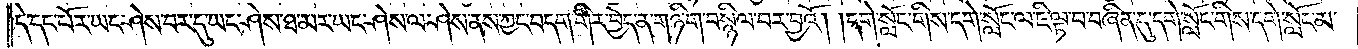དེ་དང་པོར་ཡང་ཤེས་བར་དུ་ཡང་ཤེས་ཐ་མར་ཡང་ཤེས་ལ་ཤེས་ནས་ཀྱང་བདག་གིར་བྱེད་ན་གཉི་ག་བསྙིལ་བར་བྱའོ། །དགེ་སློང་གིས་དགེ་སློང་ལ་ཇི་ལྟ་བ་བཞིན་དུ་དགེ་སློང་གིས་དགེ་སློང་མ་
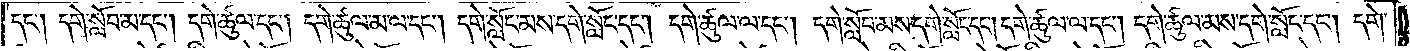དང༌། དགེ་སློབ་མ་དང༌། དགེ་ཚུལ་དང༌། དགེ་ཚུལ་མ་ལ་དང༌། དགེ་སློང་མས་དགེ་སློང་དང༌། དགེ་ཚུལ་ལ་དང༌། དགེ་སློབ་མས་དགེ་སློང་དང༌། དགེ་ཚུལ་ལ་དང༌། དགེ་ཚུལ་མས་དགེ་སློང་དང༌། དགེ་
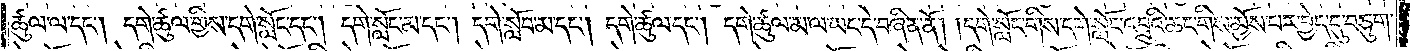ཚུལ་ལ་དང༌། དགེ་ཚུལ་གྱིས་དགེ་སློང་དང༌། དགེ་སློང་མ་དང༌། དགེ་སློབ་མ་དང༌། དགེ་ཚུལ་དང༌། དགེ་ཚུལ་མ་ལ་ཡང་དེ་བཞིན་ནོ། །དགེ་སློང་གིས་དགེ་སློང་འབྲུའི་ཆང་གིས་མྱོས་པར་བྱེད་དུ་བཅུག་
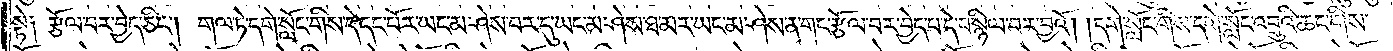སྟེ༑ རྩོལ་བར་བྱེད་ཅིང༌། གལ་ཏེ་དགེ་སློང་གིས་དེ་དང་པོར་ཡང་མ་ཤེས་བར་དུ་ཡང་མ་ཤེས་ཐ་མར་ཡང་མ་ཤེས་ན་གང་རྩོལ་བར་བྱེད་པ་དེ་བསྙིལ་བར་བྱའོ། །དགེ་སློང་གིས་དགེ་སློང་འབྲུའི་ཆང་གིས་
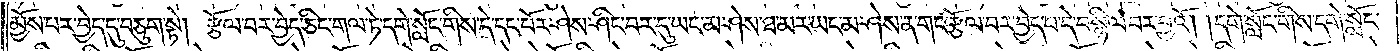མྱོས་པར་བྱེད་དུ་བཅུག་སྟེ། རྩོལ་བར་བྱེད་ཅིང་གལ་ཏེ་དགེ་སློང་གིས་དེ་དང་པོར་ཤེས་ཤིང་བར་དུ་ཡང་མ་ཤེས་ཐ་མར་ཡང་མ་ཤེས་ན་གང་རྩོལ་བར་བྱེད་པ་དེ་བསྙིལ་བར་བྱའོ། །དགེ་སློང་གིས་དགེ་སློང་
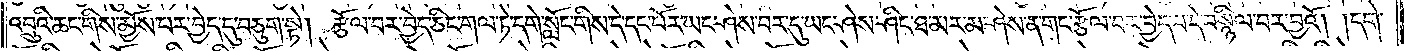འབྲུའི་ཆང་གིས་མྱོས་པར་བྱེད་དུ་བཅུག་སྟེ། རྩོལ་བར་བྱེད་ཅིང་གལ་ཏེ་དགེ་སློང་གིས་དེ་དང་པོར་ཡང་ཤེས་པར་དུ་ཡང་ཤེས་ཤིང་ཐ་མར་མ་ཤེས་ན་གང་རྩོལ་བར་བྱེད་པ་དེ་བསྙིལ་བར་བྱའོ། །དགེ་
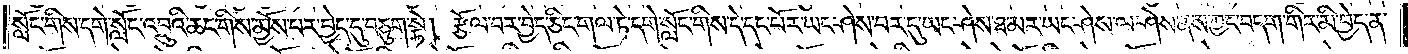སློང་གིས་དགེ་སློང་འབྲུའི་ཆང་གིས་མྱོས་པར་བྱེད་དུ་བཅུག་སྟེ། རྩོལ་བར་བྱེད་ཅིང་གལ་ཏེ་དགེ་སློང་གིས་དེ་དང་པོར་ཡང་ཤེས་བར་དུ་ཡང་ཤེས་ཐ་མར་ཡང་ཤེས་ལ་ཤེས་ནས་ཀྱང་བདག་གིར་མི་བྱེད་ན་
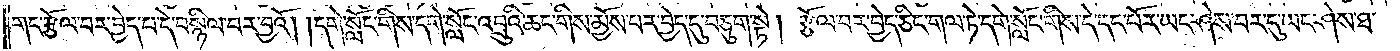གང་རྩོལ་བར་བྱེད་པ་དེ་བསྙིལ་བར་བྱའོ། །དགེ་སློང་གིས་དགེ་སློང་འབྲུའི་ཆང་གིས་མྱོས་པར་བྱེད་དུ་བཅུག་སྟེ། རྩོལ་བར་བྱེད་ཅིང་གལ་ཏེ་དགེ་སློང་གིས་དེ་དང་པོར་ཡང་ཤེས་བར་དུ་ཡང་ཤེས་ཐ་
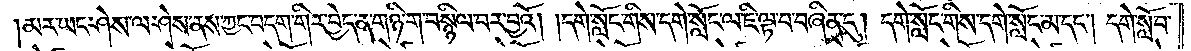མར་ཡང་ཤེས་ལ་ཤེས་ནས་ཀྱང་བདག་གིར་བྱེད་ན་གཉི་ག་བསྙིལ་བར་བྱའོ། །དགེ་སློང་གིས་དགེ་སློང་ལ་ཇི་ལྟ་བ་བཞིན་དུ། དགེ་སློང་གིས་དགེ་སློང་མ་དང༌། དགེ་སློབ་
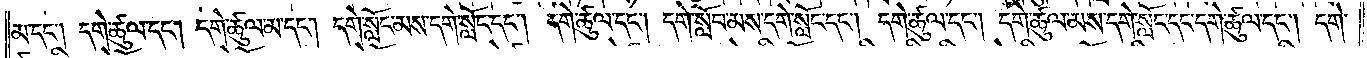མ་དང༌། དགེ་ཚུལ་དང༌། དགེ་ཚུལ་མ་དང༌། དགེ་སློང་མས་དགེ་སློང་དང༌། དགེ་ཚུལ་དང༌། དགེ་སློབ་མས་དགེ་སློང་དང༌། དགེ་ཚུལ་དང༌། དགེ་ཚུལ་མས་དགེ་སློང་དང་དགེ་ཚུལ་དང༌། དགེ་
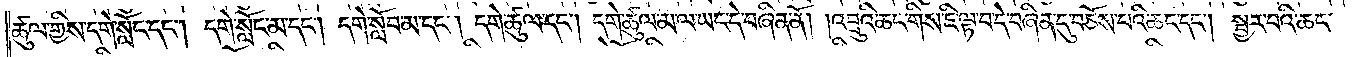ཚུལ་གྱིས་དགེ་སློང་དང༌། དགེ་སློང་མ་དང༌། དགེ་སློབ་མ་དང༌། དགེ་ཚུལ་དང༌། དགེ་ཚུལ་མ་ལ་ཡང་དེ་བཞིན་ནོ། །འབྲུའི་ཆང་གིས་ཇི་ལྟ་བ་དེ་བཞིན་དུ་བཅོས་པའི་ཆང་དང༌། སྦྱར་བའི་ཆང་
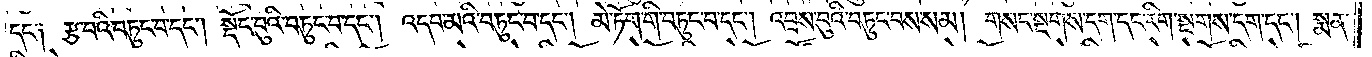དང༌༑ རྩ་བའི་བཏུང་བ་དང༌། སྡོང་བུའི་བཏུང་བ་དང༌། འདབ་མའི་བཏུང་བ་དང༌། མེ་ཏོག་གི་བཏུང་བ་དང༌། འབྲས་བུའི་བཏུང་བས་སམ། གསང་སྔགས་དག་དང་རིག་སྔགས་དག་དང༌། སྨན་
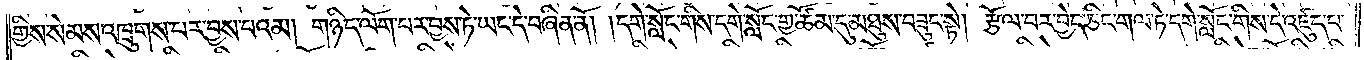གྱིས་སེམས་འཁྲུགས་པར་བྱས་པའམ། གཉིད་ལོག་པར་བྱས་ཏེ་ཡང་དེ་བཞིན་ནོ། །དགེ་སློང་གིས་དགེ་སློང་གྱ་ཚོམ་དུ་མཐུས་བཟུང་སྟེ། རྩོལ་བར་བྱེད་ཅིང་གལ་ཏེ་དགེ་སློང་གིས་དེ་འཛུད་པ་
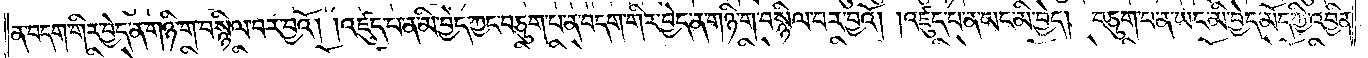ན་བདག་གིར་བྱེད་ན་གཉི་ག་བསྙིལ་བར་བྱའོ། །འཛུད་པ་ན་མི་བྱེད་ཀྱང་བཅུག་པ་ན་བདག་གིར་བྱེད་ན་གཉི་ག་བསྙིལ་བར་བྱའོ། །འཛུད་པ་ན་ཡང་མི་བྱེད། བཅུག་པ་ན་ཡང་མི་བྱེད་མོད་ཀྱི་འབྱིན་
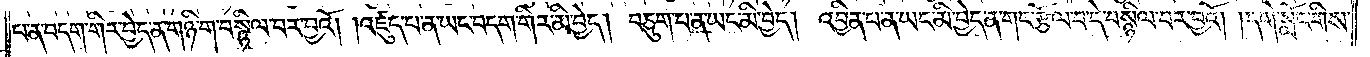པ་ན་བདག་གིར་བྱེད་ན་གཉི་ག་བསྙིལ་བར་བྱའོ། །འཛུད་པ་ན་ཡང་བདག་གིར་མི་བྱེད། བཅུག་པ་ན་ཡང་མི་བྱེད། འབྱིན་པ་ན་ཡང་མི་བྱེད་ན་གང་རྩོལ་བ་དེ་བསྙིལ་བར་བྱའོ། །དགེ་སློང་གིས་
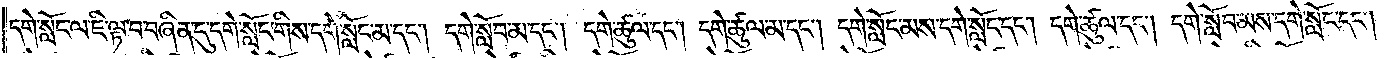དགེ་སློང་ལ་ཇི་ལྟ་བ་བཞིན་དུ་དགེ་སློང་གིས་དགེ་སློང་མ་དང༌། དགེ་སློབ་མ་དང༌། དགེ་ཚུལ་དང༌། དགེ་ཚུལ་མ་དང༌། དགེ་སློང་མས་དགེ་སློང་དང༌། དགེ་ཚུལ་དང༌། དགེ་སློབ་མས་དགེ་སློང་དང༌།
